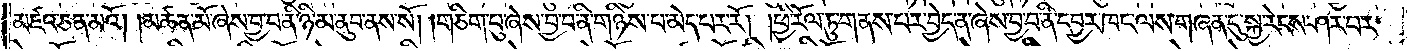མཛའ་ཅན་མའོ། །མཚན་མོ་ཞེས་བྱ་བ་ནི་ཉི་མ་ནུབ་ནས་སོ། །གཅིག་པུ་ཞེས་བྱ་བ་ནི་གཉིས་པ་མེད་པར་རོ། །ཕྱི་རོལ་ཏུ་གནས་པར་བྱེད་ན་ཞེས་བྱ་བ་ནི་དབྱར་ཁང་ལས་གཞན་དུ་སྐྱ་རེངས་ཤར་བར་
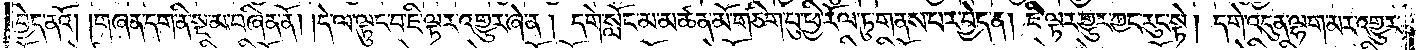བྱེད་ནའོ། །གཞན་དག་ནི་སྔ་མ་བཞིན་ནོ། །དེ་ལ་ལྟུང་བ་ཇི་ལྟར་འགྱུར་ཞེ་ན། དགེ་སློང་མ་མཚན་མོ་གཅིག་པུ་ཕྱི་རོལ་ཏུ་གནས་པར་བྱེད་ན། ཇི་ལྟར་གྱུར་ཀྱང་རུང་སྟེ། དགེ་འདུན་ལྷག་མར་འགྱུར་
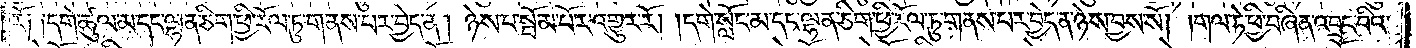རོ། །དགེ་ཚུལ་མ་དང་ལྷན་ཅིག་ཕྱི་རོལ་ཏུ་གནས་པར་བྱེད་ན། ཉེས་པ་སྦོམ་པོར་འགྱུར་རོ། །དགེ་སློང་མ་དང་ལྷན་ཅིག་ཕྱི་རོལ་ཏུ་གནས་པར་བྱེད་ན་ཉེས་བྱས་སོ། །གལ་ཏེ་ཕྱི་བཞིན་འབྲང་བའི་
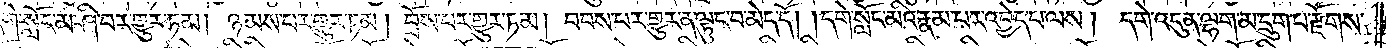དགེ་སློང་མ་ཤི་བར་གྱུར་ཏམ། ཉམས་པར་གྱུར་ཏམ། བྲོས་པར་གྱུར་ཏམ། བབས་པར་གྱུར་ན་ལྟུང་བ་མེད་དོ། །དགེ་སློང་མའི་རྣམ་པར་འབྱེད་པ་ལས། དགེ་འདུན་ལྷག་མ་དྲུག་པ་རྫོགས་
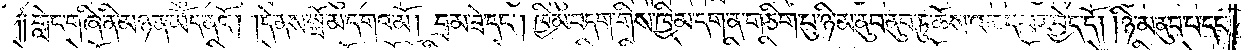གླེང་གཞི་ནི་མཉན་ཡོད་ནའོ། །དེ་ནས་སྦོམ་དགའ་མོ། བྲམ་ཟེ་དང༌། ཁྱིམ་བདག་གིས་ཁྱིམ་དག་ན་གཅིག་པུ་ཉི་མ་ནུབ་ནུབ་ཏུ་ཆོས་འཆད་པར་བྱེད་དོ། །ཉི་མ་ནུབ་པ་དང་
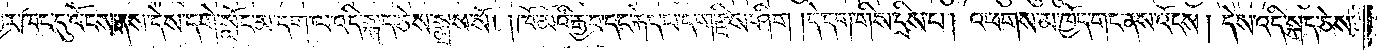དབྱར་ཁང་དུ་འོངས་ནས་དེས་དགེ་སློང་མ་དག་ལ་འདི་སྐད་ཅེས་སྨྲས་སོ། །ཁོ་མོའི་རྒྱ་བ་དང་རྐེད་པ་དག་རྫིས་ཤིག །དེ་དག་གིས་དྲིས་པ། འཕགས་མ་ཁྱོད་གང་ནས་འོངས། དེས་འདི་སྐད་ཅེས་
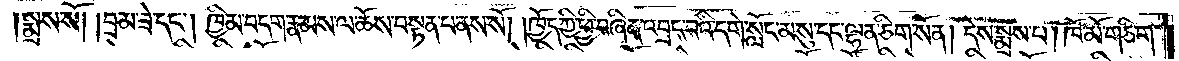།སྨྲས་སོ། །བྲམ་ཟེ་དང༌། ཁྱིམ་བདག་རྣམས་ལ་ཆོས་བསྟན་པ་ནས་སོ། །ཁྱོད་ཀྱི་ཕྱི་བཞིན་འབྲང་བའི་དགེ་སློང་མ་སུ་དང་ལྷན་ཅིག་སོན། དེས་སྨྲས་པ། ཁོ་མོ་གཅིག་
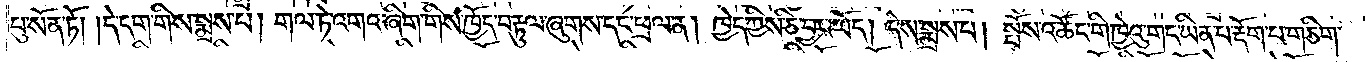པུ་སོན་ཏོ། །དེ་དག་གིས་སྨྲས་པ། གལ་ཏེ་འགའ་ཞིག་གིས་ཁྱོད་བརྟུལ་ཞུགས་དང་ཕྲལ་ན། ཁྱེད་ཀྱིས་ཅི་བྱར་ཡོད། དེས་སྨྲས་པ། སྤོས་འཚོང་གི་ཁྱེའུ་གང་ཡིན་པ་རྡོག་པ་གཅིག་
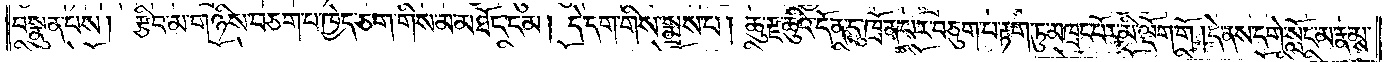བསྣུན་པས། རྩིབ་མ་གཉིས་བཅག་པ་ཁྱེད་ཅག་གིས་མ་མཐོང་ངམ། དེ་དག་གིས་སྨྲས་པ། ཆུ་རྫ་ཆུའི་དོན་དུ་ཁྲོན་པར་བཅུག་པ་རྟག་ཏུ་མཁྲང་བོར་མི་ལྡོག་གོ །དེ་ནས་དགེ་སློང་མ་རྣམས་
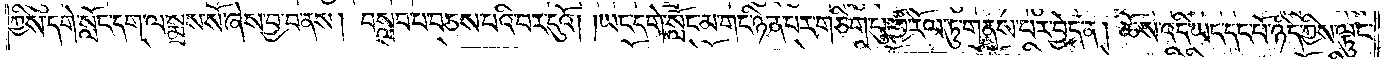ཀྱིས་དགེ་སློང་དག་ལ་སྨྲས་སོ་ཞེས་བྱ་བ་ནས། བསླབ་པ་བཅས་པའི་བར་དུའོ། །ཡང་དགེ་སློང་མ་གང་ཉིན་པར་གཅིག་པུ་ཕྱི་རོལ་ཏུ་གནས་པར་བྱེད་ན། ཆོས་འདི་ཡང་དང་པོ་ཉིད་ཀྱིས་ལྟུང་
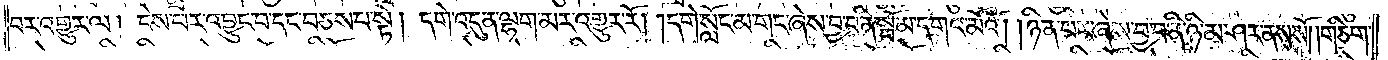བར་འགྱུར་ལ། ངེས་པར་འབྱུང་བ་དང་བཅས་པ་སྟེ། དགེ་འདུན་ལྷག་མར་འགྱུར་རོ། །དགེ་སློང་མ་གང་ཞེས་བྱ་བ་ནི་སྦོམ་དགའ་མོའོ། །ཉིན་པར་ཞེས་བྱ་བ་ནི་ཉི་མ་ཤར་ནས་སོ། །གཅིག་
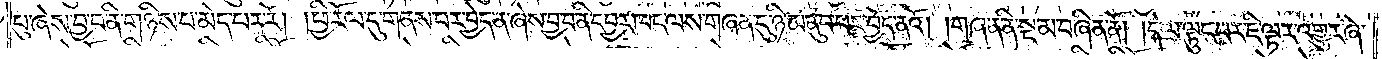པུ་ཞེས་བྱ་བ་ནི་གཉིས་པ་མེད་པར་རོ། །ཕྱི་རོལ་དུ་གནས་པར་བྱེད་ན་ཞེས་བྱ་བ་ནི་དབྱར་ཁང་ལས་གཞན་དུ་ཉི་མ་ནུབ་པར་བྱེད་ནའོ། །གཞན་ནི་སྔ་མ་བཞིན་ནོ། །དེ་ལ་ལྟུང་བར་ཇི་ལྟར་འགྱུར་ཞེ་
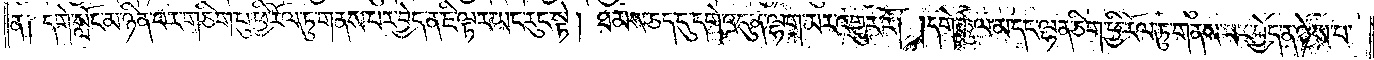ན༑ དགེ་སློང་མ་ཉིན་པར་གཅིག་པུ་ཕྱི་རོལ་ཏུ་གནས་པར་བྱེད་ན་ཇི་ལྟར་ཡང་རུང་སྟེ། ཐམས་ཅད་དུ་དགེ་འདུན་ལྷག་མར་འགྱུར་རོ། །དགེ་ཚུལ་མ་དང་ལྷན་ཅིག་ཕྱི་རོལ་ཏུ་གནས་པར་བྱེད་ན་ཉེས་པ་
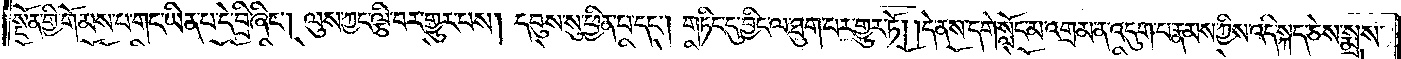སྔོན་གྱི་གོམས་པ་གང་ཡིན་པ་དེ་བྲི་ཞིང༌། ལུས་ཀྱང་ལྕི་བར་གྱུར་པས། དབུས་སུ་ཕྱིན་པ་དང༌། གཏིང་དུ་བྱིང་ལ་ཐུག་པར་གྱུར་ཏོ། །དེ་ནས་དགེ་སློང་མ་འགྲམ་ན་འདུག་པ་རྣམས་ཀྱིས་འདི་སྐད་ཅེས་སྨྲས་
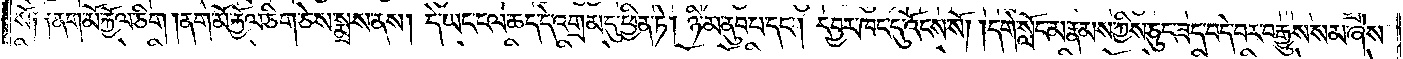སོ༑ ༑ནག་མོ་རྐྱོལ་ཅིག །ནག་མོ་རྐྱོལ་ཅིག་ཅེས་སྨྲས་ནས། དེ་ཡང་ངལ་ཆད་དེ་འགྲམ་དུ་ཕྱིན་ཏེ། ཉི་མ་ནུབ་པ་དང༌། དབྱར་ཁང་དུ་འོངས་སོ། །དགེ་སློང་མ་རྣམས་ཀྱིས་ཅུང་ཟད་བདེ་བར་བརྒྱུས་སམ་ཞེས་
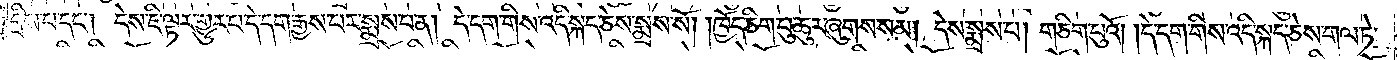དྲིས་པ་དང༌། དེས་ཇི་ལྟར་གྱུར་པ་དེ་དག་རྒྱས་པར་སྨྲས་པ་ན། དེ་དག་གིས་འདི་སྐད་ཅེས་སྨྲས་སོ། །ཁྱོད་ཅིག་པུ་ཆུར་ཞུགས་སམ། དེས་སྨྲས་པ། གཅིག་པུའོ། །དེ་དག་གིས་འདི་སྐད་ཅེས་གལ་ཏེ་
